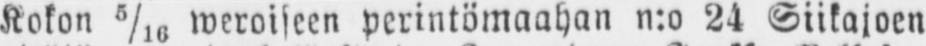Kokon 5/16 weroiseen perintömaahan n:o 24 Siikajoen
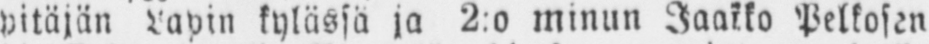pitäjän Lapin kylässä ja 2:o minun Jaakko Pelkosen
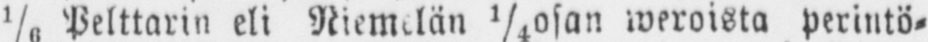⅙ Pelttarin eli Niemelän ¼osan weroista perintö-
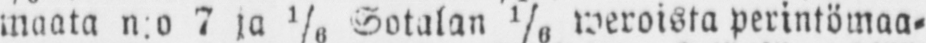maata n:o 7 ja Sotalan ⅙ weroista perintömaa-
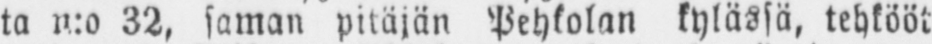ta n:o 32, saman pitäjän Pehtolan kylässä, tehkööt
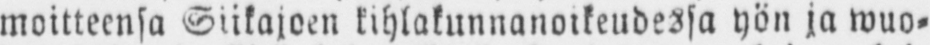moitteensa Siikajoen kihlakunnanoikeudessa yön ja wuo-
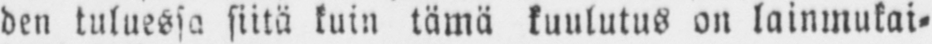den tutuessa siitä kuin tämä kuulutus on lainmukai-
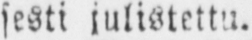sesti julistettu.
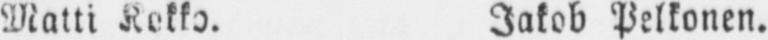Matti Kokko. Jakob Pelkonen.
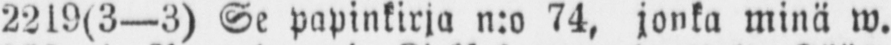2219(3 —3) Se papinkirja n:o 74, jonka minä w.
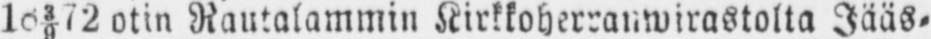103/972 otin Rautalammin Kirkkoherranwirastolta Jääs-
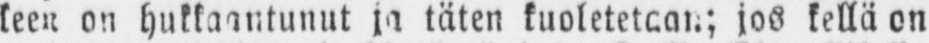keen on hukkaantunut ja täten kuoletetaan; jos kellä on
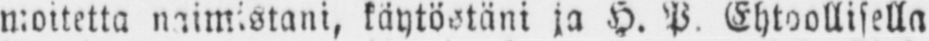moitetta naimistani, käytöstäni ja H. P Ehtoollisella
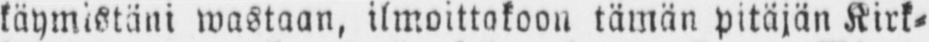käymistäni wastaan, ilmoittakoon tämän pitäjän Kirk-
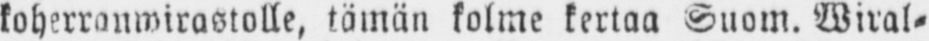koherronwirastolle, tämän kolme kertaa Suom. Wiral-
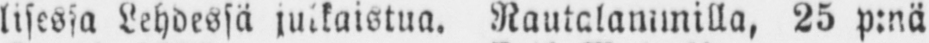lisessa Lehdessä julkaistua. Rautalammilla, 25 p:nä
